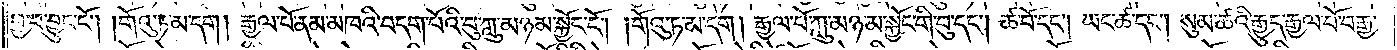བྱ་བ་བྱུང་ངོ༌། །གོའུ་ཏ་མ་དག །རྒྱལ་པོ་ནམ་མཁའི་བདག་པོའི་བུ་ཀླུ་མཉམ་སྐྱོང་ངོ༌། །གོའུ་ཏ་མ་དག །རྒྱལ་པོ་ཀླུ་མཉམ་སྐྱོང་གི་བུ་དང༌། ཚ་བོ་དང༌། ཡང་ཚ་དང༌། སུམ་ཚའི་རྒྱུད་རྒྱལ་པོ་བརྒྱ་
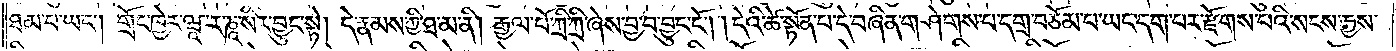ཐམ་པ་ཡང༌། གྲོང་ཁྱེར་ཝཱ་ར་ཎཱ་སིར་བྱུང་སྟེ། དེ་རྣམས་ཀྱི་ཐ་མ་ནི། རྒྱལ་པོ་ཀྲི་ཀྲི་ཞེས་བྱ་བ་བྱུང་ངོ༌། །དེའི་ཚེ་སྟོན་པ་དེ་བཞིན་གཤེགས་པ་དགྲ་བཅོམ་པ་ཡང་དག་པར་རྫོགས་པའི་སངས་རྒྱས་
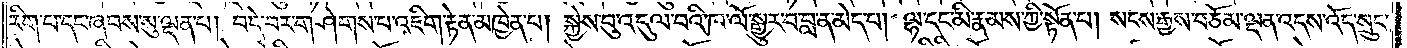རིག་པ་དང་ཞབས་སུ་ལྡན་པ། བདེ་བར་གཤེགས་པ། འཇིག་རྟེན་མཁྱེན་པ། སྐྱེས་བུ་འདུལ་བའི་ཁ་ལོ་སྒྱུར་བ་བླ་ན་མེད་པ། ལྷ་དང་མི་རྣམས་ཀྱི་སྟོན་པ། སངས་རྒྱས་བཅོམ་ལྡན་འདས་འོད་སྲུང་
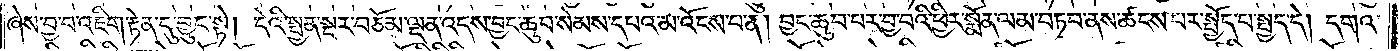ཞེས་བྱ་བ་འཇིག་རྟེན་དུ་བྱུང་སྟེ། དེའི་སྤྱན་སྔར་བཅོམ་ལྡན་འདས་བྱང་ཆུབ་སེམས་དཔའ་མ་འོངས་པ་ན། བྱང་ཆུབ་པར་བྱ་བའི་ཕྱིར་སྨོན་ལམ་བཏབ་ནས་ཚངས་པར་སྤྱོད་པ་སྤྱད་དེ། དགའ་
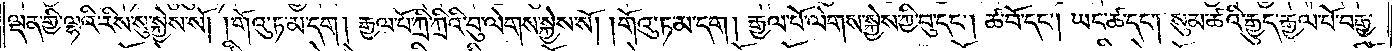ལྡན་གྱི་ལྷའི་རིས་སུ་སྐྱེས་སོ། གོའུ་ཏ་མ་དག །རྒྱལ་པོ་ཀྲི་ཀྲིའི་བུ་ལེགས་སྐྱེས་སོ། །གོའུ་ཏ་མ་དག །རྒྱལ་པོ་ལེགས་སྐྱེས་བུ་དང༌། ཚ་བོ་དང༌། ཡང་ཚ་དང༌། སུམ་ཚའི་རྒྱུད་རྒྱལ་པོ་བརྒྱ་
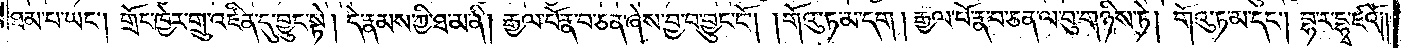ཐམ་པ་ཡང༌། གྲོང་ཁྱེར་གྲུ་འཛིན་དུ་བྱུང་སྟེ། དེ་རྣམས་ཀྱི་ཐ་མ་ནི། རྒྱལ་པོ་རྣ་བ་ཅན་ཞེས་བྱ་བ་བྱུང་ངོ༌། །གོའུ་ཏ་མ་དག །རྒྱལ་པོ་རྣ་བ་ཅན་ལ་བུ་གཉིས་ཏེ། གོའུ་ཏ་མ་དང༌། བྷ་ར་དྷྭ་ཛའོ༎
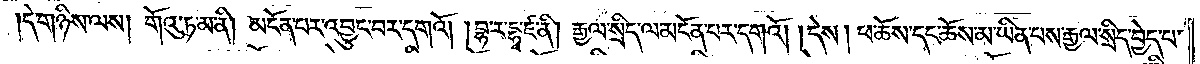དེ་གཉིས་ལས། གོའུ་ཏ་མ་ནི། མངོན་པར་འབྱུང་བར་དགའོ། །བྷ་ར་དྷྭ་ཛ་ནི། རྒྱལ་སྲིད་ལ་མངོན་པར་དགའོ། །དེས། ཕ་ཆོས་དང་ཆོས་མ་ཡིན་པས་རྒྱལ་སྲིད་བྱེད་པ་
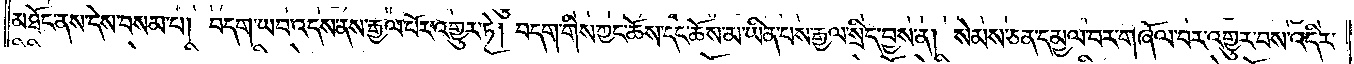མཐོང་ནས་དེས་བསམ་པ། བདག་ཡབ་འདས་ནས་རྒྱལ་པོར་འགྱུར་ཏེ། བདག་གིས་ཀྱང་ཆོས་དང་ཆོས་མ་ཡིན་པས་རྒྱལ་སྲིད་བྱས་ན། སེམས་ཅན་དམྱལ་བར་གཞོལ་བར་འགྱུར་བས་འདིར་
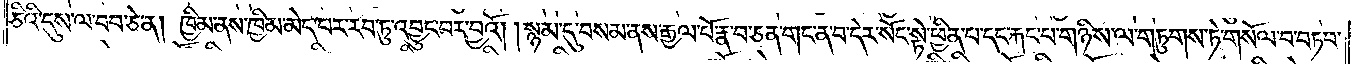ཅིའི་དུས་ལ་བབ་ཅེ་ན། ཁྱིམ་ནས་ཁྱིམ་མེད་པར་རབ་ཏུ་འབྱུང་བར་བྱའོ། །སྙམ་དུ་བསམ་ནས་རྒྱལ་པོ་རྣ་བ་ཅན་གང་ན་བ་དེར་སོང་སྟེ་ཕྱིན་པ་དང་རྐང་པ་གཉིས་ལ་གཏུགས་ཏེ་གསོལ་བ་བཏབ་
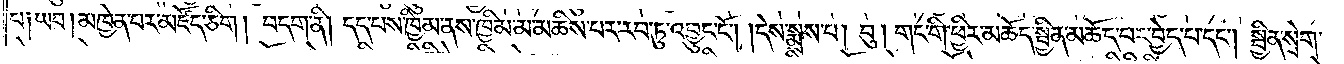པ། ཡབ། མཁྱེན་པར་མཛོད་ཅིག །བདག་ནི། དད་པས་ཁྱིམ་ནས་ཁྱིམ་མ་མཆིས་པར་རབ་ཏུ་འབྱུང་ངོ༌། །དེས་སྨྲས་པ། བུ། གང་གི་ཕྱིར་མཆོད་སྦྱིན་མཆོད་པར་བྱེད་པ་དང༌། སྦྱིན་སྲེག་
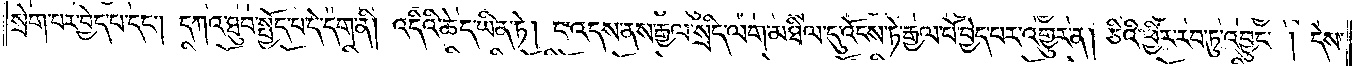སྲེག་པར་བྱེད་པ་དང༌། དཀའ་ཐུབ་སྤྱོད་པ་དེ་དག་ནི། འདིའི་ཆེད་ཡིན་ཏེ། ང་འདས་ནས་རྒྱལ་སྲིད་ལག་མཐིལ་དུ་འོངས་ཏེ་རྒྱལ་པོ་བྱེད་པར་འགྱུར་ན། ཅིའི་ཕྱིར་རབ་ཏུ་འབྱུང༌། དེས་
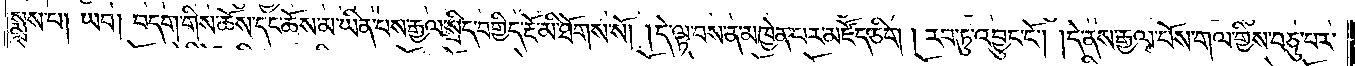སྨྲས་པ། ཡབ། བདག་གིས་ཆོས་དང་ཆོས་མ་ཡིན་པས་རྒྱལ་སྲིད་བགྱིད་རྔོ་མི་ཐོགས་སོ། །དེ་ལྟ་བས་ན་མཁྱེན་པར་མཛོད་ཅིག །རབ་ཏུ་འབྱུང་ངོ༌། །དེ་ནས་རྒྱལ་པོས་གལ་གྱིས་བཅུ་པར་
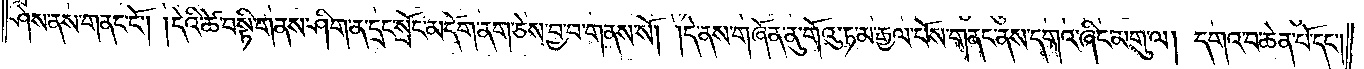ཤེས་ནས་གནང་ངོ༌། །དེའི་ཚེ་བསྟི་གནས་ཤིག་ན་དྲང་སྲོང་མདོག་ནག་ཅེས་བྱ་བ་གནས་སོ། །དེ་ནས་གཞོན་ནུ་གོའུ་ཏ་མ་རྒྱལ་པོས་གནང་ནས་དགའ་ཞིང་མགུ་ལ། དགའ་བ་ཆེན་པོ་དང༌།
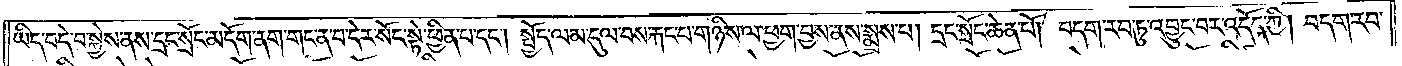ཡིད་བདེ་བ་སྐྱེས་ནས་དྲང་སྲོང་མདོག་ནག་གང་ན་བ་དེར་སོང་སྟེ་ཕྱིན་པ་དང༌། སྤྱོད་ལམ་དུལ་བས་རྐང་པ་གཉིས་ལ་ཕྱག་བྱས་ནས་སྨྲས་པ། དྲང་སྲོང་ཆེན་པོ། བདག་རབ་ཏུ་འབྱུང་བར་འདོད་ཀྱི། བདག་རབ་
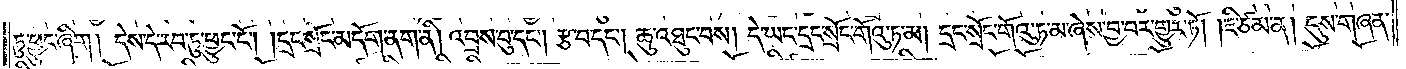ཏུ་ཕྱུང་ཞིག །དེས་དེ་རབ་ཏུ་ཕྱུང་ངོ༌། །དྲང་སྲོང་མདོག་ནག་ནི། འབྲས་བུ་དང༌། རྩ་བ་དང༌། ཆུ་འཐུང་བས། དེ་ཡང་དྲང་སྲོང་གོའུ་ཏ་མ། དྲང་སྲོང་གོའུ་ཏ་མ་ཞེས་བྱ་བར་གྱུར་ཏོ། །ཇི་ཙམ་ན། དུས་གཞན་
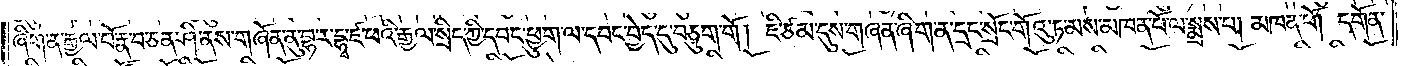ཞིག་ན་རྒྱལ་པོ་རྣ་བ་ཅན་ཤི་ནས་གཞོན་ནུ་བྷ་ར་དྷྭ་ཛ་ཕའི་རྒྱལ་སྲིད་ཀྱི་དབང་ཕྱུག་ལ་དབང་བྱེད་དུ་བཅུག་གོ། ཇི་ཙམ་དུས་གཞན་ཞིག་ན་དྲང་སྲོང་གོའུ་ཏ་མས་མཁན་པོ་ལ་སྨྲས་པ། མཁན་པོ། དགོན་
